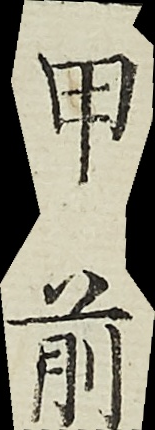甲前
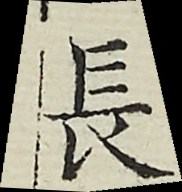長
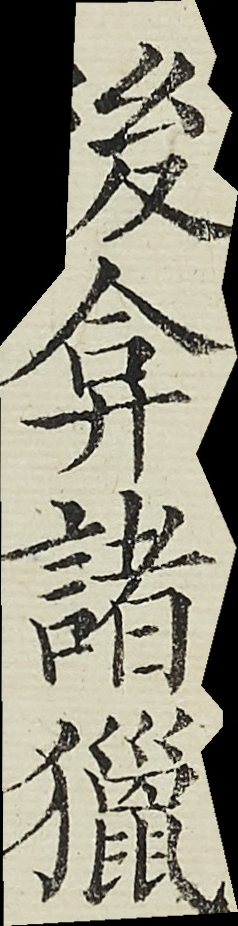後弇諸獵
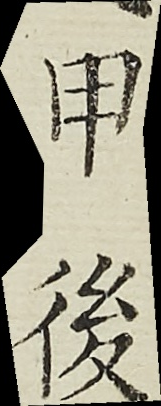甲後
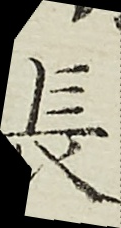長
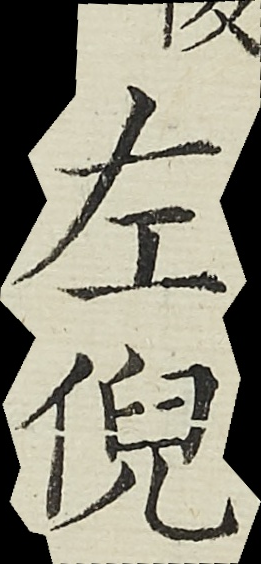左倪
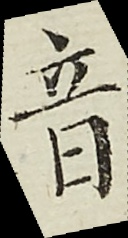音
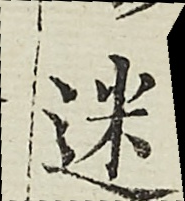迷
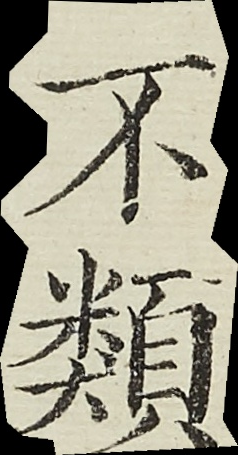不類
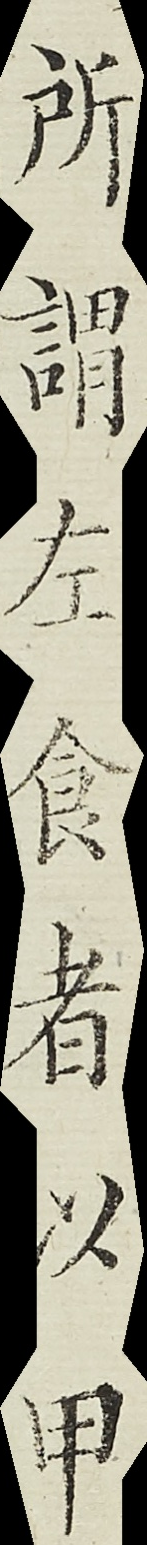所謂左食者以甲
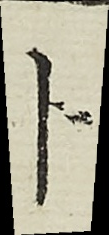卜
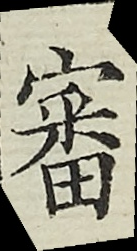審
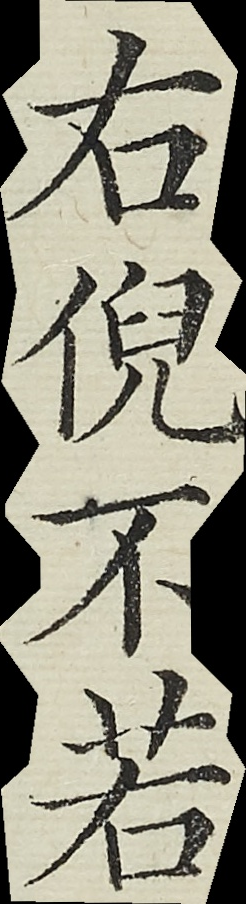右倪不若
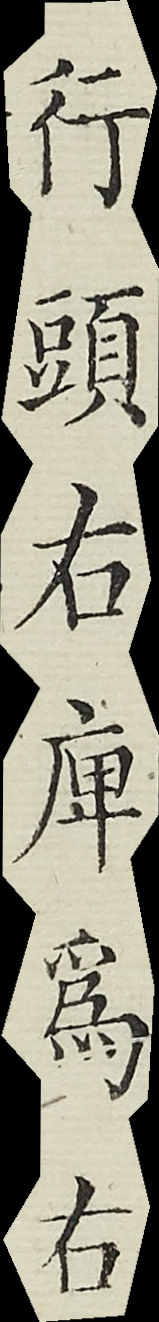行頭右庳為右
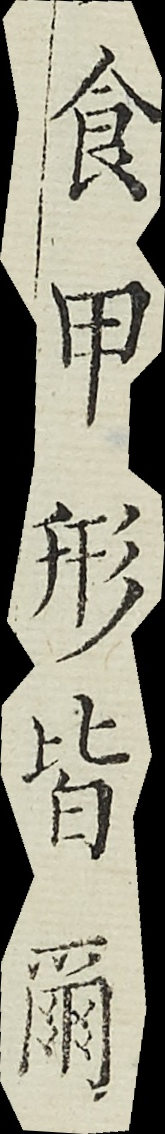食甲形皆爾
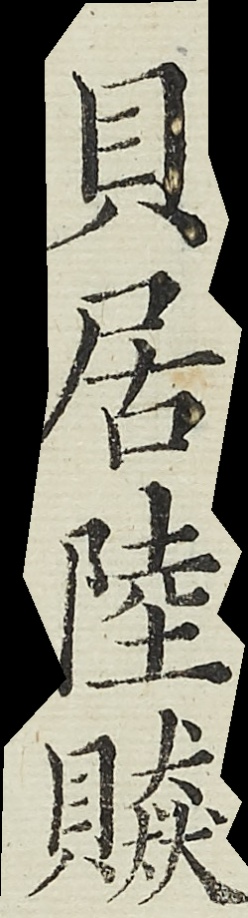貝居陸贆
